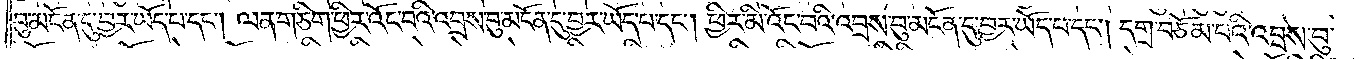བུ་མངོན་དུ་བྱར་ཡོད་པ་དང༌། ལན་ཅིག་ཕྱིར་འོང་བའི་འབྲས་བུ་མངོན་དུ་བྱར་ཡོད་པ་དང༌། ཕྱིར་མི་འོང་བའི་འབྲས་བུ་མངོན་དུ་བྱར་ཡོད་པ་དང༌། དགྲ་བཅོམ་པའི་འབྲས་བུ་
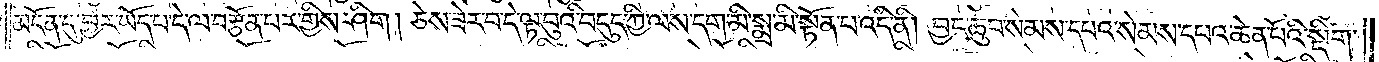མངོན་དུ་བྱར་ཡོད་པ་དེ་ལ་བརྩོན་པར་གྱིས་ཤིག །ཅེས་ཟེར་བ་དེ་ལྟ་བུའི་བདུད་ཀྱི་ལས་དག་མི་སྨྲ་མི་སྟོན་པ་འདི་ནི། བྱང་ཆུབ་སེམས་དཔའ་སེམས་དཔའ་ཆེན་པོའི་སྡིག་
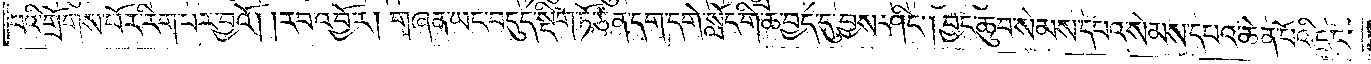པའི་གྲོགས་པོར་རིག་པར་བྱའོ། །རབ་འབྱོར། གཞན་ཡང་བདུད་སྡིག་ཏོ་ཅན་དག་དགེ་སློང་གི་ཆ་བྱང་དུ་བྱས་ཤིང༌། བྱང་ཆུབ་སེམས་དཔའ་སེམས་དཔའ་ཆེན་པོའི་དྲུང་
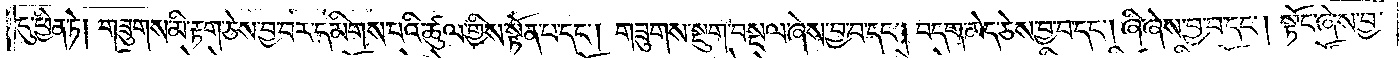དུ་ཕྱིན་ཏེ། གཟུགས་མི་རྟག་ཅེས་བྱ་བར་དམིགས་པའི་ཚུལ་གྱིས་སྟོན་པ་དང༌། གཟུགས་སྡུག་བསྔལ་ཞེས་བྱ་བ་དང༌། བདག་མེད་ཅེས་བྱ་བ་དང༌། ཞི་ཞེས་བྱ་བ་དང༌། སྟོང་ཞེས་བྱ་
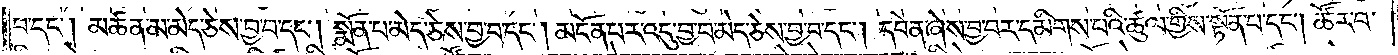བ་དང༌། མཚན་མ་མེད་ཅེས་བྱ་བ་དང༌། སྨོན་པ་མེད་ཅེས་བྱ་བ་དང༌། མངོན་པར་འདུ་བྱ་བ་མེད་ཅེས་བྱ་བ་དང༌། དབེན་ཞེས་བྱ་བར་དམིགས་པའི་ཚུལ་གྱིས་སྟོན་པ་དང༌། ཚོར་བ་
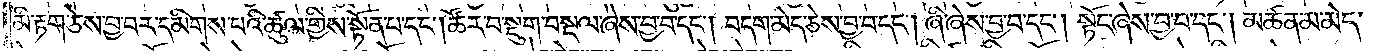མི་རྟག་ཅེས་བྱ་བར་དམིགས་པའི་ཚུལ་གྱིས་སྟོན་པ་དང༌། ཚོར་བ་སྡུག་བསྔལ་ཞེས་བྱ་བ་དང༌། བདག་མེད་ཅེས་བྱ་བ་དང༌། ཞི་ཞེས་བྱ་བ་དང༌། སྟོང་ཞེས་བྱ་བ་དང༌། མཚན་མ་མེད་
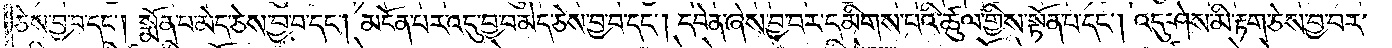ཅེས་བྱ་བ་དང༌། སྨོན་པ་མེད་ཅེས་བྱ་བ་དང༌། མངོན་པར་འདུ་བྱ་བ་མེད་ཅེས་བྱ་བ་དང༌། དབེན་ཞེས་བྱ་བར་དམིགས་པའི་ཚུལ་གྱིས་སྟོན་པ་དང༌། འདུ་ཤེས་མི་རྟག་ཅེས་བྱ་བར་
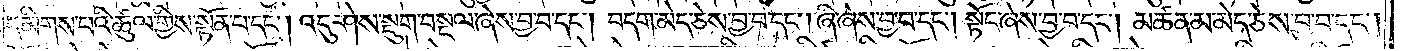དམིགས་པའི་ཚུལ་གྱིས་སྟོན་པ་དང༌། འདུ་ཤེས་སྡུག་བསྔལ་ཞེས་བྱ་བ་དང༌། བདག་མེད་ཅེས་བྱ་བ་དང༌། ཞི་ཞེས་བྱ་བ་དང༌། སྟོང་ཞེས་བྱ་བ་དང༌། མཚན་མ་མེད་ཅེས་བྱ་བ་དང༌།
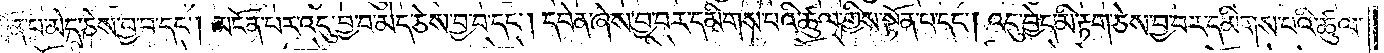སྨོན་པ་མེད་ཅེས་བྱ་བ་དང༌། མངོན་པར་འདུ་བྱ་བ་མེད་ཅེས་བྱ་བ་དང༌། དབེན་ཞེས་བྱ་བར་དམིགས་པའི་ཚུལ་གྱིས་སྟོན་པ་དང༌། འདུ་བྱེད་མི་རྟག་ཅེས་བྱ་བར་དམིགས་པའི་ཚུལ་
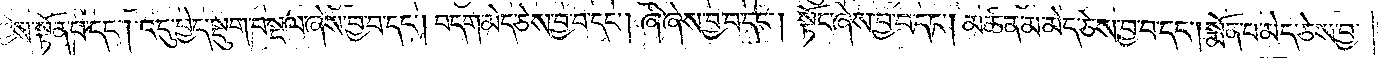གྱིས་སྟོན་པ་དང༌། འདུ་བྱེད་སྡུག་བསྔལ་ཞེས་བྱ་བ་དང༌། བདག་མེད་ཅེས་བྱ་བ་དང༌། ཞི་ཞེས་བྱ་བ་དང༌། སྟོང་ཞེས་བྱ་བ་དང༌། མཚན་མ་མེད་ཅེས་བྱ་བ་དང༌། སྨོན་པ་མེད་ཅེས་བྱ་
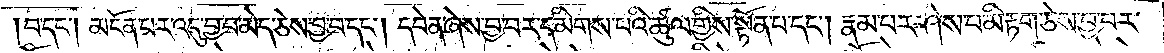བ་དང༌། མངོན་པར་འདུ་བྱ་བ་མེད་ཅེས་བྱ་བ་དང༌། དབེན་ཞེས་བྱ་བར་དམིགས་པའི་ཚུལ་གྱིས་སྟོན་པ་དང༌། རྣམ་པར་ཤེས་པ་མི་རྟག་ཅེས་བྱ་བར་
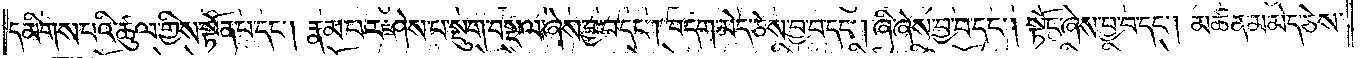དམིགས་པའི་ཚུལ་གྱིས་སྟོན་པ་དང༌། རྣམ་པར་ཤེས་པ་སྡུག་བསྔལ་ཞེས་བྱ་བ་དང༌། བདག་མེད་ཅེས་བྱ་བ་དང༌། ཞི་ཞེས་བྱ་བ་དང༌། སྟོང་ཞེས་བྱ་བ་དང༌། མཚན་མ་མེད་ཅེས་
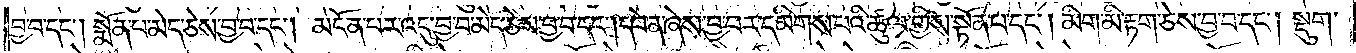བྱ་བ་དང༌། སྨོན་པ་མེད་ཅེས་བྱ་བ་དང༌། མངོན་པར་འདུ་བྱ་བ་མེད་ཅེས་བྱ་བ་དང༌། དབེན་ཞེས་བྱ་བར་དམིགས་པའི་ཚུལ་གྱིས་སྟོན་པ་དང༌། མིག་མི་རྟག་ཅེས་བྱ་བ་དང༌། སྡུག་
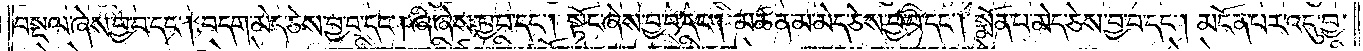བསྔལ་ཞེས་བྱ་བ་དང༌། བདག་མེད་ཅེས་བྱ་བ་དང༌། ཞི་ཞེས་བྱ་བ་དང༌། སྟོང་ཞེས་བྱ་བ་དང༌། མཚན་མ་མེད་ཅེས་བྱ་བ་དང༌། སྨོན་པ་མེད་ཅེས་བྱ་བ་དང༌། མངོན་པར་འདུ་བྱ་
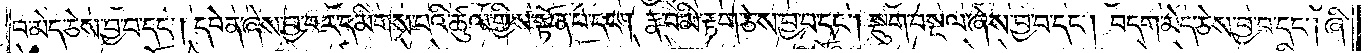བ་མེད་ཅེས་བྱ་བ་དང༌། དབེན་ཞེས་བྱ་བར་དམིགས་པའི་ཚུལ་གྱིས་སྟོན་པ་དང༌། རྣ་བ་མི་རྟག་ཅེས་བྱ་བ་དང༌། སྡུག་བསྔལ་ཞེས་བྱ་བ་དང༌། བདག་མེད་ཅེས་བྱ་བ་དང༌། ཞི་
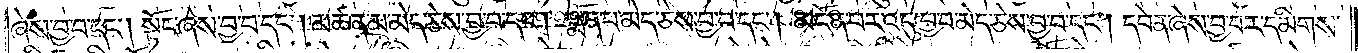ཞེས་བྱ་བ་དང༌། སྟོང་ཞེས་བྱ་བ་དང༌། མཚན་མ་མེད་ཅེས་བྱ་བ་དང༌། སྨོན་པ་མེད་ཅེས་བྱ་བ་དང༌། མངོན་པར་འདུ་བྱ་བ་མེད་ཅེས་བྱ་བ་དང༌། དབེན་ཞེས་བྱ་བར་དམིགས་
